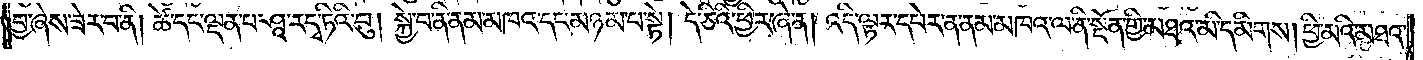བྱ་ཞེས་ཟེར་བ་ནི། ཚེ་དང་ལྡན་པ་ཤཱ་ར་དྭ་ཏིའི་བུ། སྐྱེ་བ་ནི་ནམ་མཁའ་དང་མཉམ་པ་སྟེ། དེ་ཅིའི་ཕྱིར་ཞེ་ན། འདི་ལྟར་དཔེར་ན་ནམ་མཁའ་ལ་ནི་སྔོན་གྱི་མཐའ་མི་དམིགས། ཕྱི་མའི་མཐའ་
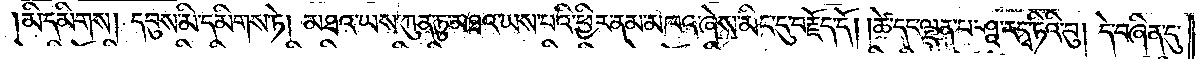མི་དམིགས། དབུས་མི་དམིགས་ཏེ། མཐའ་ཡས་ཀུན་ཏུ་མཐའ་ཡས་པའི་ཕྱིར་ནམ་མཁའ་ཞེས་མིང་དུ་བརྗོད་དོ། །ཚེ་དང་ལྡན་པ་ཤཱ་ར་དྭ་ཏིའི་བུ། དེ་བཞིན་དུ་
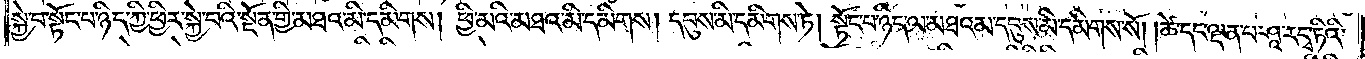སྐྱེ་བ་སྟོང་པ་ཉིད་ཀྱི་ཕྱིར་སྐྱེ་བའི་སྔོན་གྱི་མཐའ་མི་དམིགས། ཕྱི་མའི་མཐའ་མི་དམིགས། དབུས་མི་དམིགས་ཏེ། སྟོང་པ་ཉིད་ལ་མཐའམ་དབུས་མི་དམིགས་སོ། །ཚེ་དང་ལྡན་པ་ཤཱ་ར་དྭ་ཏིའི་
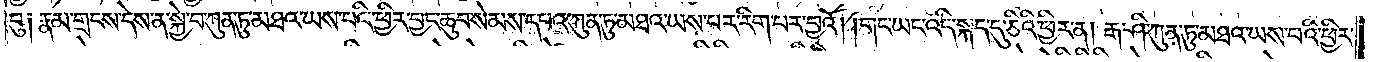བུ། རྣམ་གྲངས་དེས་ན་སྐྱེ་བ་ཀུན་ཏུ་མཐའ་ཡས་པའི་ཕྱིར་བྱང་ཆུབ་སེམས་དཔའ་ཀུན་ཏུ་མཐའ་ཡས་པར་རིག་པར་བྱའོ། །གང་ཡང་འདི་སྐད་དུ་ཅིའི་ཕྱིར་ན། རྒ་ཤི་ཀུན་ཏུ་མཐའ་ཡས་པའི་ཕྱིར་
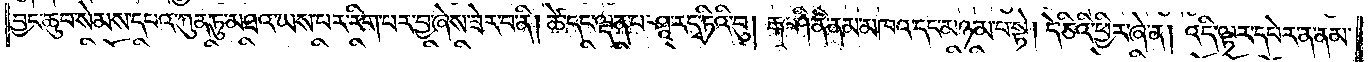བྱང་ཆུབ་སེམས་དཔའ་ཀུན་ཏུ་མཐའ་ཡས་པར་རིག་པར་བྱ་ཞེས་ཟེར་བ་ནི། ཚེ་དང་ལྡན་པ་ཤཱ་ར་དྭ་ཏིའི་བུ། རྒ་ཤི་ནི་ནམ་མཁའ་དང་མཉམ་པ་སྟེ། དེ་ཅིའི་ཕྱིར་ཞེ་ན། འདི་ལྟར་དཔེར་ན་ནམ་
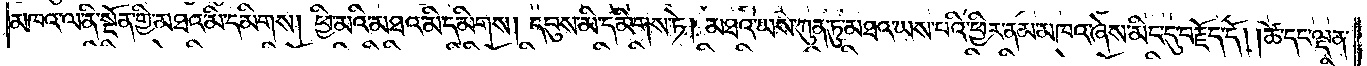མཁའ་ལ་ནི་སྔོན་གྱི་མཐའ་མི་དམིགས། ཕྱི་མའི་མཐའ་མི་དམིགས། དབུས་མི་དམིགས་ཏེ། མཐའ་ཡས་ཀུན་ཏུ་མཐའ་ཡས་པའི་ཕྱིར་ནམ་མཁའ་ཞེས་མིང་དུ་བརྗོད་དོ། །ཚེ་དང་ལྡན་
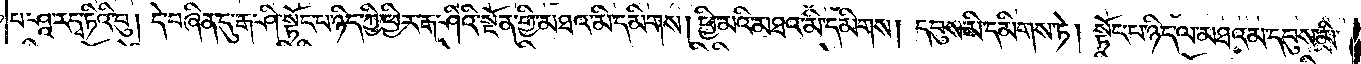པ་ཤཱ་ར་དྭ་ཏིའི་བུ། དེ་བཞིན་དུ་རྒ་ཤི་སྟོང་པ་ཉིད་ཀྱི་ཕྱིར་རྒ་ཤིའི་སྔོན་གྱི་མཐའ་མི་དམིགས། ཕྱི་མའི་མཐའ་མི་དམིགས། དབུས་མི་དམིགས་ཏེ། སྟོང་པ་ཉིད་ལ་མཐའམ་དབུས་མི་
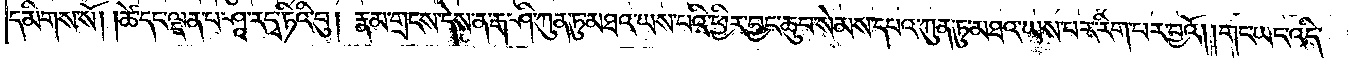དམིགས་སོ། །ཚེ་དང་ལྡན་པ་ཤཱ་ར་དྭ་ཏིའི་བུ། རྣམ་གྲངས་དེས་ན་རྒ་ཤི་ཀུན་ཏུ་མཐའ་ཡས་པའི་ཕྱིར་བྱང་ཆུབ་སེམས་དཔའ་ཀུན་ཏུ་མཐའ་ཡས་པར་རིག་པར་བྱའོ། །གང་ཡང་འདི་
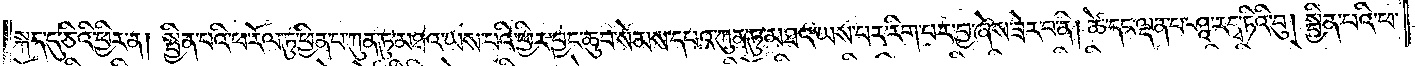སྐད་དུ་ཅིའི་ཕྱིར་ན། སྦྱིན་པའི་ཕ་རོལ་ཏུ་ཕྱིན་པ་ཀུན་ཏུ་མཐའ་ཡས་པའི་ཕྱིར་བྱང་ཆུབ་སེམས་དཔའ་ཀུན་ཏུ་མཐའ་ཡས་པར་རིག་པར་བྱ་ཞེས་ཟེར་བ་ནི། ཚེ་དང་ལྡན་པ་ཤཱ་ར་དྭ་ཏིའི་བུ། སྦྱིན་པའི་ཕ་
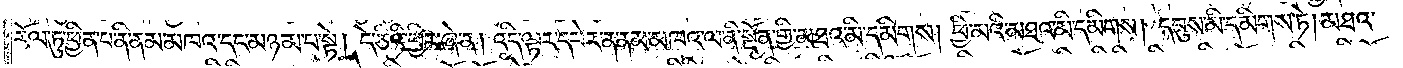རོལ་ཏུ་ཕྱིན་པ་ནི་ནམ་མཁའ་དང་མཉམ་པ་སྟེ། དེ་ཅིའི་ཕྱིར་ཞེ་ན། འདི་ལྟར་དཔེར་ན་ནམ་མཁའ་ལ་ནི་སྔོན་གྱི་མཐའ་མི་དམིགས། ཕྱི་མའི་མཐའ་མི་དམིགས། དབུས་མི་དམིགས་ཏེ། མཐའ་
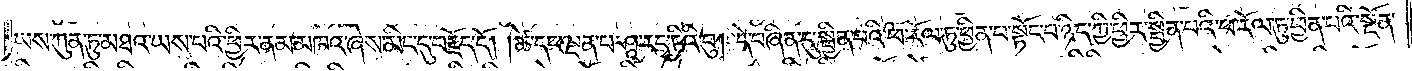ཡས་ཀུན་ཏུ་མཐའ་ཡས་པའི་ཕྱིར་ནམ་མཁའ་ཞེས་མིང་དུ་བརྗོད་དོ། །ཚེ་དང་ལྡན་པ་ཤཱ་ར་དྭ་ཏིའི་བུ། དེ་བཞིན་དུ་སྦྱིན་པའི་ཕ་རོལ་ཏུ་ཕྱིན་པ་སྟོང་པ་ཉིད་ཀྱི་ཕྱིར་སྦྱིན་པའི་ཕ་རོལ་ཏུ་ཕྱིན་པའི་སྔོན་
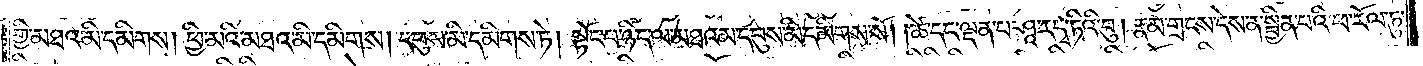གྱི་མཐའ་མི་དམིགས། ཕྱི་མའི་མཐའ་མི་དམིགས། དབུས་མི་དམིགས་ཏེ། སྟོང་པ་ཉིད་ལ་མཐའམ་དབུས་མི་དམིགས་སོ། །ཚེ་དང་ལྡན་པ་ཤཱ་ར་དྭ་ཏིའི་བུ། རྣམ་གྲངས་དེས་ན་སྦྱིན་པའི་ཕ་རོལ་ཏུ་
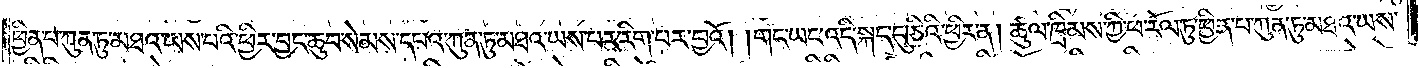ཕྱིན་པ་ཀུན་ཏུ་མཐའ་ཡས་པའི་ཕྱིར་བྱང་ཆུབ་སེམས་དཔའ་ཀུན་ཏུ་མཐའ་ཡས་པར་རིག་པར་བྱའོ། །གང་ཡང་འདི་སྐད་དུ་ཅིའི་ཕྱིར་ན། ཚུལ་ཁྲིམས་ཀྱི་ཕ་རོལ་ཏུ་ཕྱིན་པ་ཀུན་ཏུ་མཐའ་ཡས་
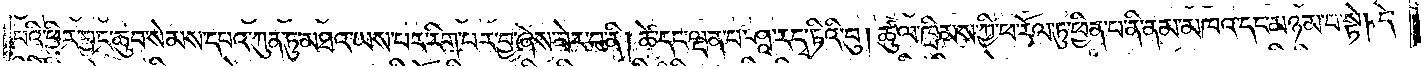པའི་ཕྱིར་བྱང་ཆུབ་སེམས་དཔའ་ཀུན་ཏུ་མཐའ་ཡས་པར་རིག་པར་བྱ་ཞེས་ཟེར་བ་ནི། ཚེ་དང་ལྡན་པ་ཤཱ་ར་དྭ་ཏིའི་བུ། ཚུལ་ཁྲིམས་ཀྱི་ཕ་རོལ་ཏུ་ཕྱིན་པ་ནི་ནམ་མཁའ་དང་མཉམ་པ་སྟེ། དེ་
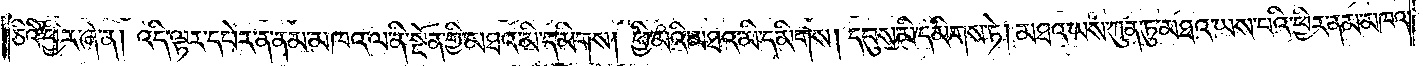ཅིའི་ཕྱིར་ཞེ་ན། འདི་ལྟར་དཔེར་ན་ནམ་མཁའ་ལ་ནི་སྔོན་གྱི་མཐའ་མི་དམིགས། ཕྱི་མའི་མཐའ་མི་དམིགས། དབུས་མི་དམིགས་ཏེ། མཐའ་ཡས་ཀུན་ཏུ་མཐའ་ཡས་པའི་ཕྱིར་ནམ་མཁའ་
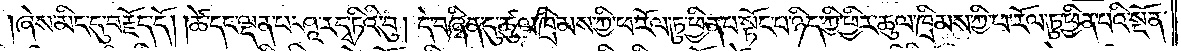ཞེས་མིང་དུ་བརྗོད་དོ། །ཚེ་དང་ལྡན་པ་ཤཱ་ར་དྭ་ཏིའི་བུ། དེ་བཞིན་དུ་ཚུལ་ཁྲིམས་ཀྱི་ཕ་རོལ་ཏུ་ཕྱིན་པ་སྟོང་པ་ཉིད་ཀྱི་ཕྱིར་ཚུལ་ཁྲིམས་ཀྱི་ཕ་རོལ་ཏུ་ཕྱིན་པའི་སྔོན་
